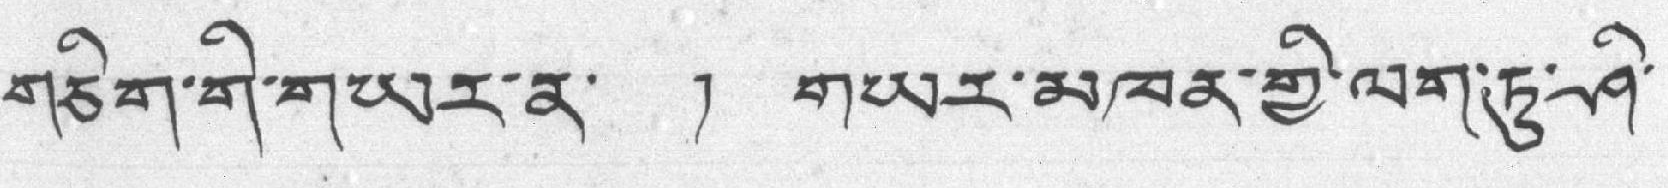གཅིག་གི་གཡར་ན་ ། གཡར་མཁན་གྱི་ལག་ཏུ་ཤི་
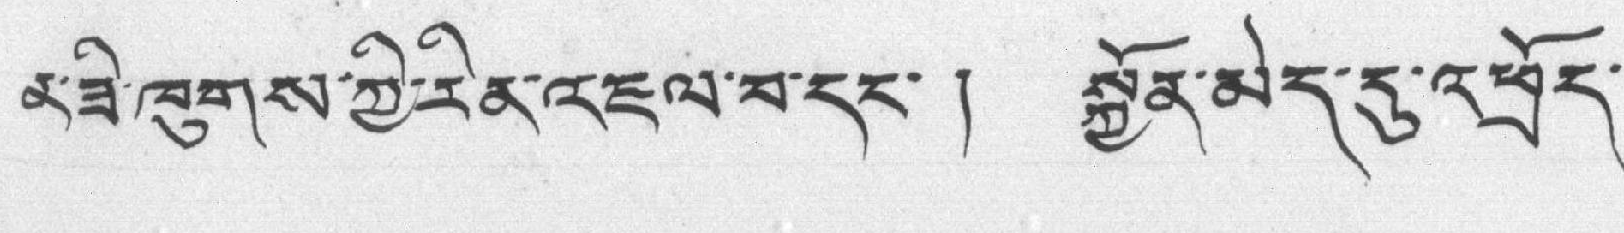ན་ཟི་ཁུགས་ཀྱི་རིན་འཇལ་བ་དང་། སྐྱོན་མེད་དུ་འཕྲོད་
